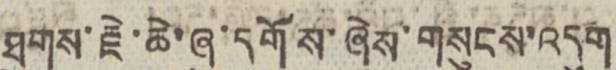ཐུགས་རྗེ་ཆེ་ཞུ་དགོས་ཞེས་གསུངས་འདུག
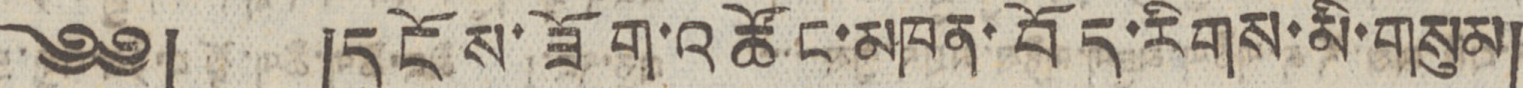༄༅། །དངོས་ཟོག་འཚོང་མཁན་བོད་རིགས་མི་གསུམ།
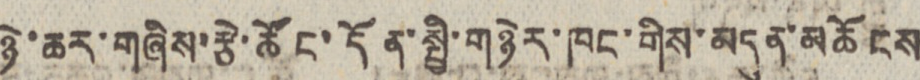ཉེ་ཆར་གཞིས་རྩེ་ཚོང་དོན་སྤྱི་གཉེར་ཁང་གིས་མདུན་མཆོངས
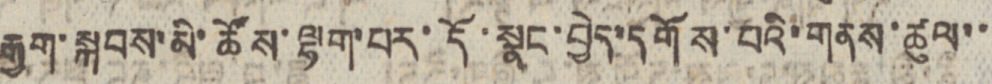རྒྱག་སྐབས་མི་ཚོས་ལྷག་པར་དོ་སྣང་བྱེད་དགོས་པའི་གནས་ཚུལ་་
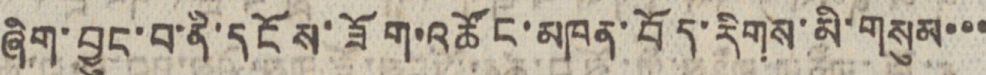ཞིག་བྱུང་བ་ནི་དངོས་ཟོག་འཚོང་མཁན་བོད་རིགས་མི་གསུམ་་་
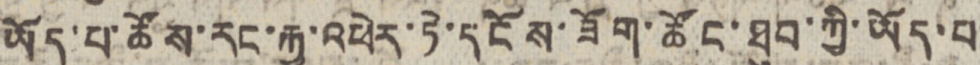ཡོད་པ་ཚོས་རང་རྐྱ་འཕེར་ཏེ་དངོས་ཟོག་ཚོང་ཐུབ་ཀྱི་ཡོད་པ་
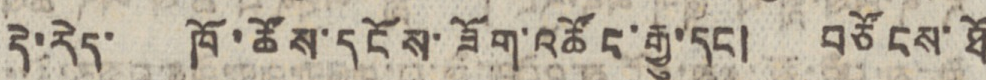དེ་རེད་ ཁོ་ཚོས་དངོས་ཟོག་འཚོང་རྒྱུ་དང། བཙོངས་ཐོ
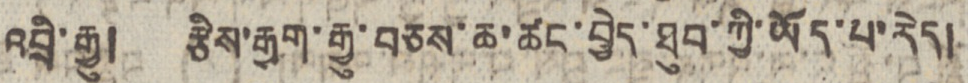འབྲི་རྒྱུ། རྩིས་རྒྱག་རྒྱུ་བཅས་ཆ་ཚང་བྱེད་ཐུབ་ཀྱི་ཡོད་པ་རེད།
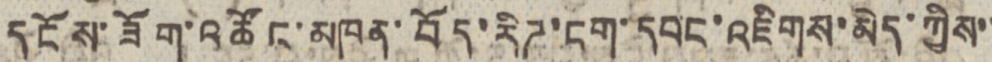དངོས་ཟོག་འཚོང་མཁན་བོད་རིཊ་ངག་དབང་འཇིགས་མེད་ཀྱིས་་
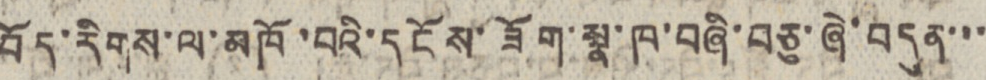བོད་རིགས་ལ་མཁོ་བའི་དངོས་ཟོག་སྣ་ཁ་བཞི་བཅུ་ཞེ་བདུན་་་
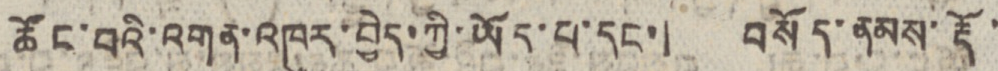ཚོང་བའི་འགན་འཁུར་བྱེད་ཀྱི་ཡོད་པ་དང་། བསོད་ནམས་རྡོ་
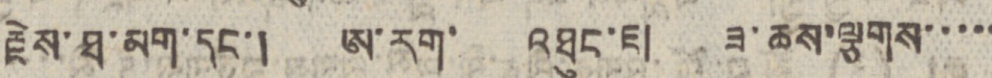རྗེས་ཐ་མག་དང་། ཨ་རག་ འཐུང་ཇ། ཟ་ཆས་ལྕགས་་་་་
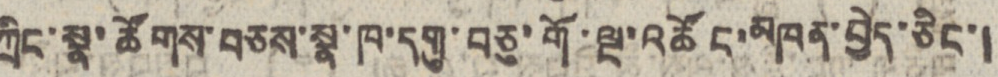ཀྲིང་སྣ་ཚོགས་བཅས་སྣ་ཁ་དགུ་བཅུ་གོ་ལྔ་འཚོང་མཁན་བྱེད་ཅིང་།
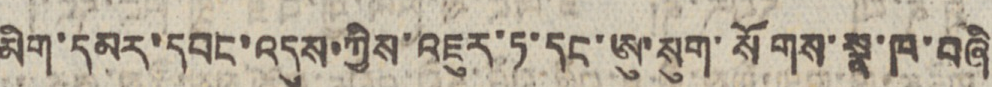མིག་དམར་དབང་འདུས་ཀྱིས་འཇུར་ཏ་དང་ཨུ་སུག་སོགས་སྣ་ཁ་བཞི
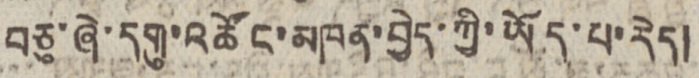བཅུ་ཞེ་དགུ་འཚོང་མཁན་བྱེད་ཀྱི་ཡོད་པ་རེད།
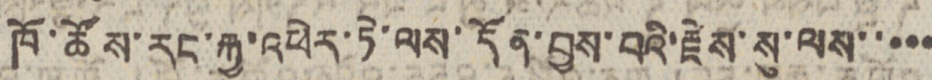ཁོ་ཚོས་རང་རྐྱ་འཕེར་ཏེ་ལས་དོན་བྱས་པའི་རྗེས་སུ་ལས་་་་་
